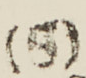(5)
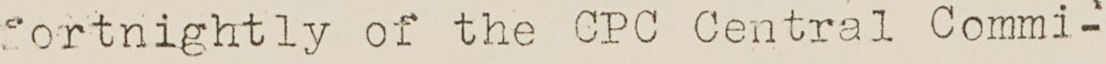fortnightly of the CPC Central Commi-
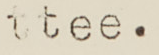tee.
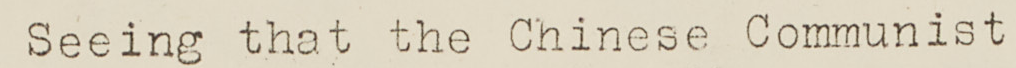Seeing that the Chinese Communist
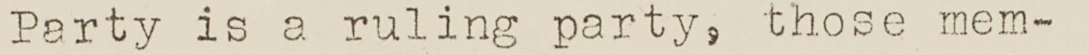Party is a ruling party, those mem-
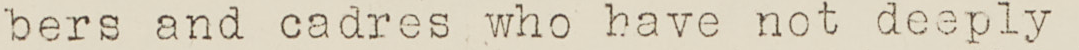bers and cadres who have not deeply
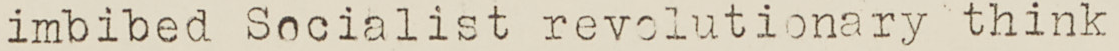imbibed Socialist revolutionary think
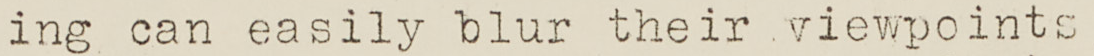ing can easily blur their viewpoints
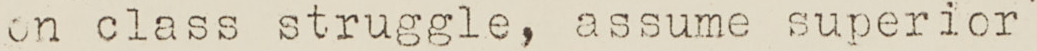on class struggle, assume superior
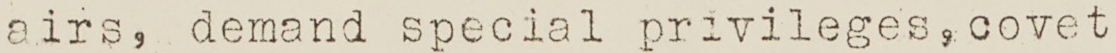airs, demand special privileges, covet
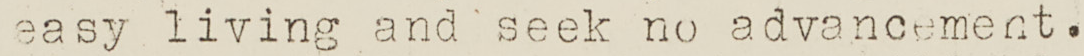easy living and seek no advancement.
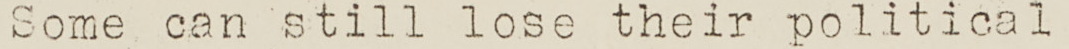Some can still lose their political
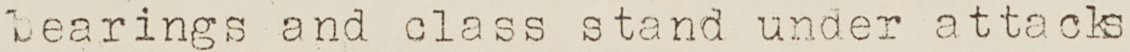bearings and class stand under attacks
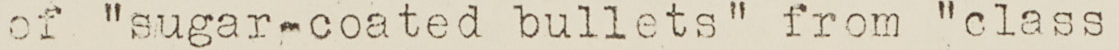of "sugar coated bullets" from "class
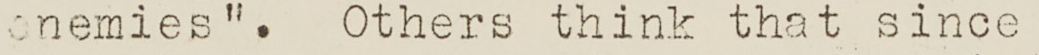enemies". Others think that since
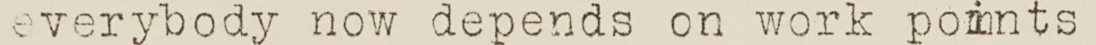everybody now depends on work points
